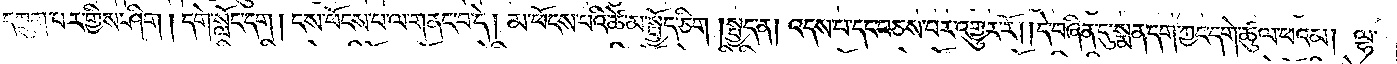དཀྲུག་པར་གྱིས་ཤིག། དགེ་སློང་དག། ངས་ཕོངས་པ་ལ་གནང་བ་དེ། མ་ཕོངས་པའི་ཚེ་མ་སྤྱོད་ཅིག །སྤྱད་ན། འདས་པ་དང་བཅས་པར་འགྱུར་རོ། །དེ་བཞིན་དུ་སྨན་དག་ཀྱང་དགེ་ཚུལ་ཕའམ། ལྷ་
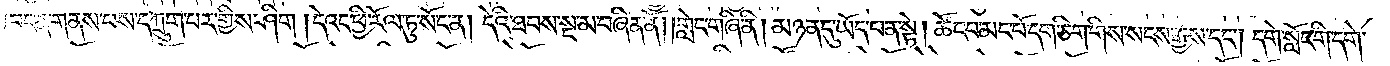ཁང་ན་གནས་པས་དཀྲུག་པར་གྱིས་ཤིག །དེའང་ཕྱི་རོལ་ཏུ་སོང་ན། དེའི་ཐབས་སྔ་མ་བཞིན་ནོ། །གླེང་གཞི་ནི། མཉན་དུ་ཡོད་པ་ན་སྟེ། ཚོང་པ་མང་པོ་དག་ཅིག་གིས་སངས་རྒྱས་དང༌། དགེ་སློང་གི་དགེ་
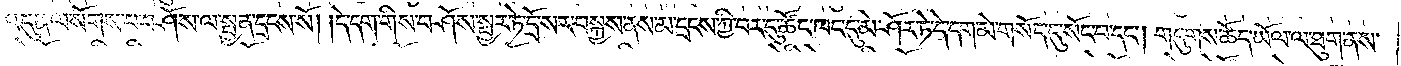འདུན་ལ་སོགས་པ་བཤོས་ལ་སྤྱན་དྲངས་སོ། །དེ་དག་གིས་བཤོས་སྦྱར་ཏེ་དྲོ་སར་བསྐྱས་ནས་མ་དྲངས་ཀྱི་བར་དུ་ཚོང་ཁང་དུ་མེ་ཤོར་ཏེ་དེ་དག་མེ་གསོད་དུ་སོང་བ་དང༌། གདུགས་ཚོད་ཡོལ་ལ་ཐུག་ནས་
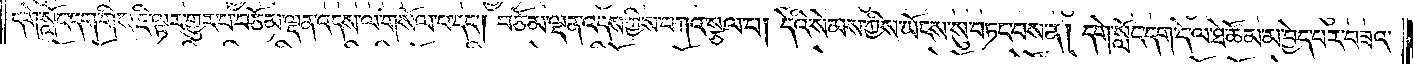དགེ་སློང་དག་གིས་ཇི་ལྟར་གྱུར་པ་བཅོམ་ལྡན་འདས་ལ་གསོལ་པ་དང༌། བཅོམ་ལྡན་འདས་ཀྱིས་བཀའ་སྩལ་པ། དེའི་སེམས་ཀྱིས་ཡོངས་སུ་བཏང་བས་ན། དགེ་སློང་དག་དེ་ལ་ཐེ་ཚོམ་མ་བྱེད་པར་བཟའ་
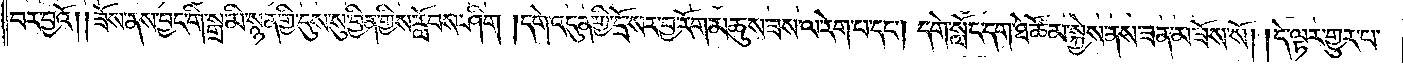བར་བྱའོ། །ཟོས་ནས་བྱང་གི་སྒྲ་མི་སྙན་གྱི་དུས་སུ་བྱིན་གྱིས་རློབས་ཤིག །དགེ་འདུན་གྱི་དྲོ་སར་བྱ་རོག་མཆུས་ཟས་ལ་རེག་པ་དང༌། དགེ་སློང་དག་ཐེ་ཚོམ་སྐྱེས་ནས་ཟན་མ་ཟོས་སོ། །དེ་ལྟར་གྱུར་པ་
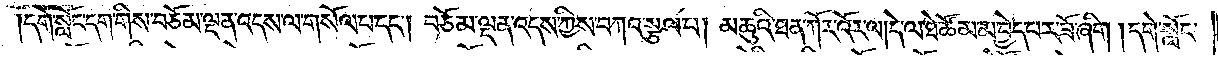དགེ་སློང་དག་གིས་བཅོམ་ལྡན་འདས་ལ་གསོལ་པ་དང༌། བཅོམ་ལྡན་འདས་ཀྱིས་བཀའ་སྩལ་པ། མཆུའི་ཐན་ཀོར་འོར་ལ། དེ་ལ་ཐེ་ཚོམ་མ་བྱེད་པར་ཟོ་ཞིག །དགེ་སློང་
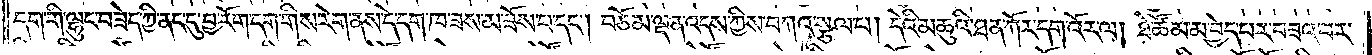དག་གི་ལྷུང་བཟེད་ཀྱི་ནང་དུ་བྱ་རོག་དག་གིས་རེག་ནས་དེ་དག་ཁ་ཟས་མ་ཟོས་པ་དང༌། བཅོམ་ལྡན་འདས་ཀྱིས་བཀའ་སྩལ་པ། དེའི་མཆུའི་ཐན་ཀོར་དག་འོར་ལ། ཐེ་ཚོམ་མ་བྱེད་པར་བཟའ་བར་
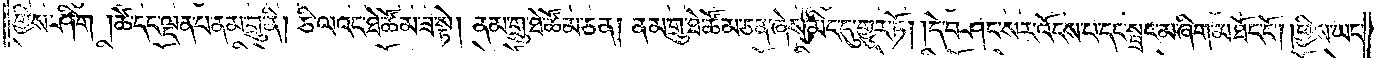གྱིས་ཤིག །ཚེ་དང་ལྡན་པ་ནམ་གྲུ་ནི། ཅི་ལའང་ཐེ་ཚོམ་ཟ་སྟེ། ནམ་གྲུ་ཐེ་ཚོམ་ཅན། ནམ་གྲུ་ཐེ་ཚོམ་ཅན་ཞེས་མིང་དུ་གྱུར་ཏོ། །དེ་བཤང་སར་འོངས་པ་དང་སྦྲང་མ་ཞིག་མཐོང་ངོ༌། །ཕྱིས་ཡང་
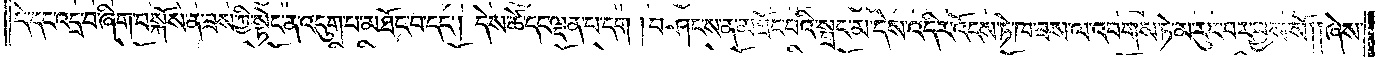དེ་དང་འདྲ་བ་ཞིག་བསྐོས་ན་ཟས་ཀྱི་སྟེང་ན་འདུག་པ་མཐོང་བ་དང༌། དེས་ཚེ་དང་ལྡན་པ་དག །བཤང་ས་ན་མཐོང་བའི་སྦྲང་མ་དེས་འདིར་འོངས་ཏེ་ཁ་ཟས་ལ་འབགས་ཏེ་མ་རུང་བར་བྱས་སོ། །ཞེས་
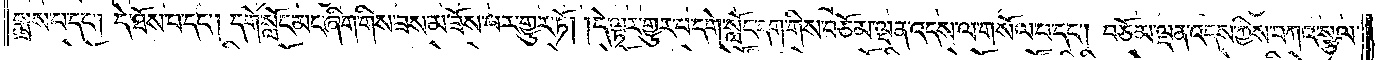སྨྲས་པ་དང༌། དེ་ཐོས་པ་དང༌། དགེ་སློང་མང་ཞིག་གིས་ཟས་མ་ཟོས་པར་གྱུར་ཏོ། །དེ་ལྟར་གྱུར་པ་དགེ་སློང་དག་གིས་བཅོམ་ལྡན་འདས་ལ་གསོལ་པ་དང༌། བཅོམ་ལྡན་འདས་ཀྱིས་བཀའ་སྩལ་
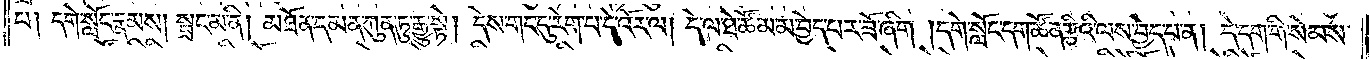པ། དགེ་སློང་རྣམས། སྦྲང་མ་ནི། མཐོན་དམན་ཀུན་ཏུ་རྒྱུ་སྟེ། དེས་གང་དུ་རེག་པ་དེ་འོར་ལ། དེ་ལ་ཐེ་ཚོམ་མ་བྱེད་པར་ཟོ་ཞིག །དགེ་སློང་དག་ཚོན་རྩིའི་ལས་བྱེད་པ་ན། དེ་དག་གི་སེམས་
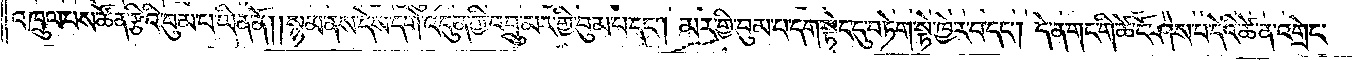འཁྲུལ་པས་ཚོན་རྩིའི་བུམ་པ་ཡིན་ནོ། །སྙམ་ནས་དེས་དགེ་འདུན་གྱི་འབྲུ་མར་གྱི་བུམ་པ་དང༌། མར་གྱི་བུམ་པ་དག་སྟེང་དུ་བཏེག་སྟེ་ཁྱེར་བ་དང༌། དེ་ན་གང་གི་ཚེ་ངོ་ཤེས་པ་དེའི་ཚེ་ན་འགྲེང་
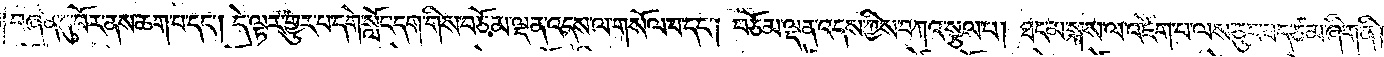བཞིན་དུ་བོར་ནས་ཆག་པ་དང༌། དེ་ལྟར་གྱུར་པ་དགེ་སློང་དག་གིས་བཅོམ་ལྡན་འདས་ལ་གསོལ་པ་དང༌། བཅོམ་ལྡན་འདས་ཀྱིས་བཀའ་སྩལ་པ། ཐང་མ་སྐས་ལ་འཛེག་པ་ལས་ཅུང་ཟད་ཙམ་ཞིག་ནི།
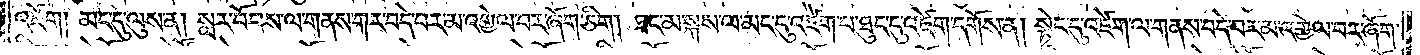འཛེག། མང་དུ་ལུས་ན། སླར་བོབས་ལ་གནས་གར་བདེ་བར་མ་འགྱེལ་བར་ཞོག་ཅིག། ཐང་མ་སྐས་ལ་མང་དུ་འཛེག་པ་ཐུང་དུ་འཛེག་དགོས་ན། སྟེང་དུ་འཛེག་ལ་གནས་བདེ་བར་མ་འགྱེལ་བར་ཞོག་
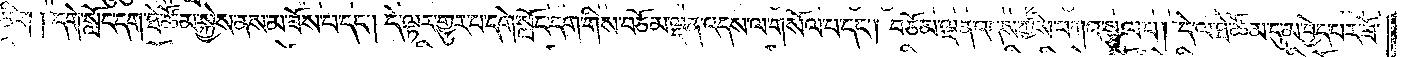ཅིག །དགེ་སློང་དག་ཐེ་ཚོམ་སྐྱེས་ནས་མ་ཟོས་པ་དང༌། དེ་ལྟར་གྱུར་པ་དགེ་སློང་དག་གིས་བཅོམ་ལྡན་འདས་ལ་གསོལ་པ་དང༌། བཅོམ་ལྡན་འདས་ཀྱིས་བཀའ་སྩལ་པ། དེ་ལ་ཐེ་ཚོམ་དུ་མ་བྱེད་པར་ཟོ་
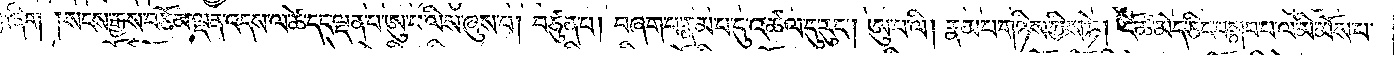ཞིག །སངས་རྒྱས་བཅོམ་ལྡན་འདས་ལ་ཚེ་དང་ལྡན་པ་ཨུ་པ་ལིས་ཞུས་པ། བཙུན་པ། བཞག་པ་རྣམ་པ་དུ་འཚལ་དུ་རུང༌། ཨུ་པ་ལི། རྣམ་པ་གཉིས་ཀྱིས་ཏེ། ངོ་ཚ་མེད་ཅིང་བསླབ་པ་ལ་མི་མོས་པ་
